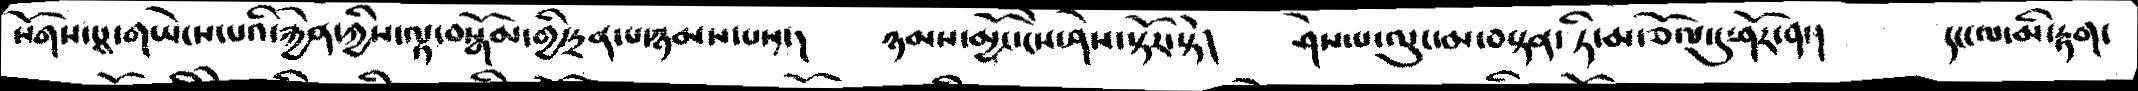སོགས་པས་གཡེངས་པའི་རྐྱེན་ཀྱིས་ལྟ་བསྒོམ་གྱི་དྲན་པ་ཉམས་པས་།    ཉམས་མྱོང་ངེས་ཤེས་སྟོར་སྟེ།    ཤེས་པ་ལུང་མ་བསྟན་ ཏི་མ་ཅོལ་དུ་ཤོར་ན་།     །ངང་ལ་མི་རྟག་
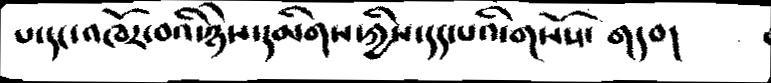པ་དང་འཁོར་བའི་ཉེས་དམིགས་ཀྱིས་དད་པའི་གསོས་  གདབ།
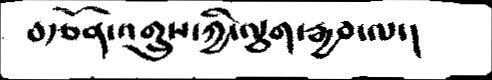བརྩོན་འགྲུས་ཀྱི་ལྕག་རྒྱབ་ལ།
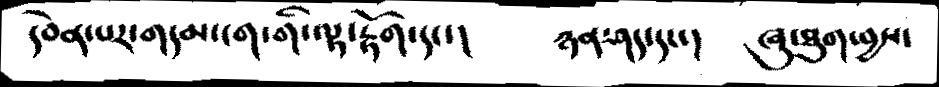དབེན་པར་གདམ་ངག་གི་ལྟ་རྟོག་དང་།    ཉན་བཤད་དང་།     ཞུ་ཐུག་བྱས་
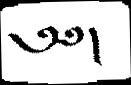༄༅།
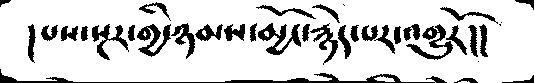།པས་སྔར་གྱི་ཉམས་མྱོང་རྙེད་པར་འགྱུརོ་།།
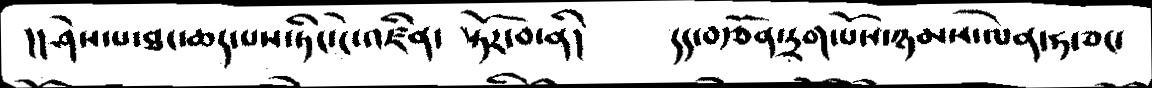།།ཤེས་པ་ཐང་ཆད་པས་ཏིང་ངེ་འཛིན་   སྟོར་བ་ནི།     །།་བརྩོན་དྲག་པོས་ཉམས་ལེན་ཧ་ཅང་
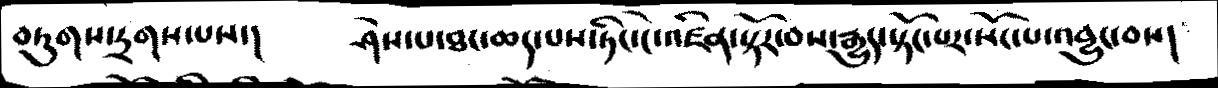བཏུགས་དྲགས་པས་།     ཤེས་པ་ཐང་ཆད་པས་ཏིང་ངེ་འཛིན་སྟོར་བས་རྒྱུད་སྟོང་པར་སོང་པ་འབྱུང་བས།
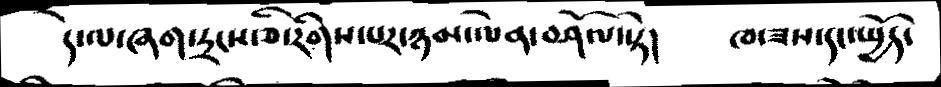དེ་ལ་ཞག་དྲངས་ཅི་རིགས་པར་ཉམ་ལེན་བཤོལ་སྟེ།    ཁ་ཟས་དང་སྤྱོད་
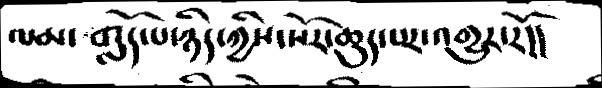ལམ་ གློད་པ་ཉིད་ཀྱིས་སོར་ཆུད་པར་འགྱུར་རོ།།
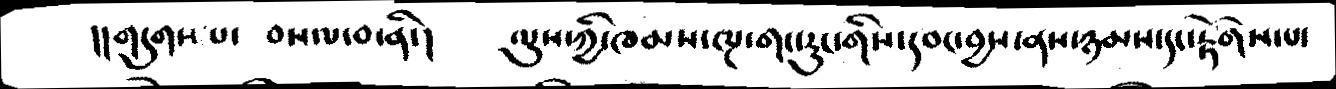།།གདུགས་ པ་  བསལ་བ་ནི་།     ལུས་ཀྱི་ཁམས་ལྔ་གང་རུང་གིས་དབང་བྱས་ནས་ཉམས་དང་རྟོགས་པ་
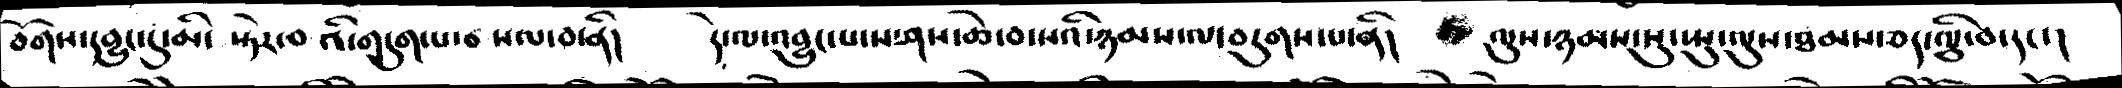བོགས་དབྱུང་དུ་མི་ སྟེར་བའི་གདུག་པ་བསལ་བ་ནི།    དེ་ལ་འབྱུང་པ་ས་ཤས་ཆེ་བ་སའི་ཉམས་ལ་བདུགས་པ་ནི།      ལུས་ཉམས་སུ་སྤུ་ལུས་ཐམས་ཅད་ལྕི་བ་དང་།
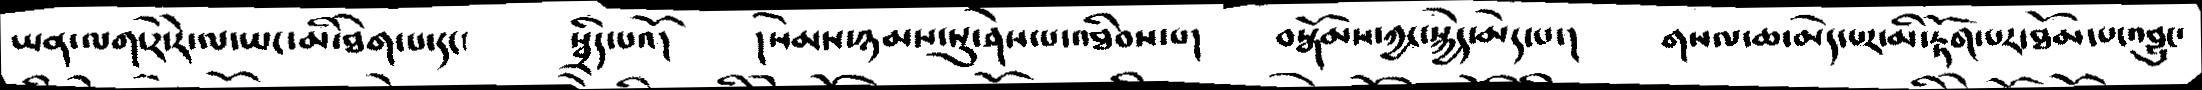ཡན་ལག་རེ་རེ་ལ་ཡང་མི་ཐེག་པ་དང་།  སྦྲིད་པའོ།   །སེམས་ཉམས་སུ་ཤེས་པ་འཐིབས་པ།    བསྒོམས་ཀྱང་སྐྱེད་མེད་པ་།     གསལ་ཆ་མེད་པར་མི་རྟོག་པར་ཐོམ་པ་འབྱུང་
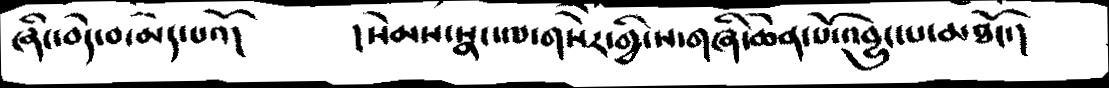ཞིང་བདེ་བ་མེད་པའོ།        །སེམས་སྣང་ལ་གསེར་གྱི་ས་གཞི་ཆེན་པོ་འབྱུང་པ་མཐོང་།
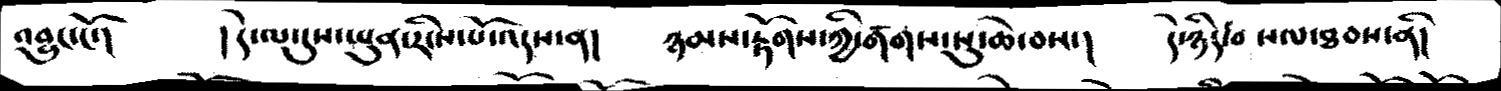འབྱུང་ངོ་།            །དེ་ལ་དུས་ཡུན་རིངས་པོ་འདས་ན།       ཉམས་རྟོགས་ཀྱི་གགས་སུ་ཆེ་བས་།      དེ་ཉིད་བསལ་ཐབས་ནི།
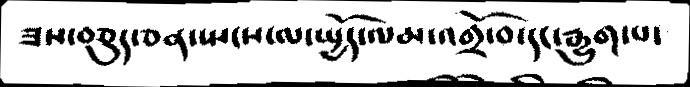ཟས་བཅུད་ཅན་སྤངས་ལ་སྤྱོད་ལམ་འགྲོ་བ་དང་རྒྱུག་པ་
